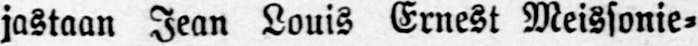jastaan Jean Louis Ernest Meissonie-
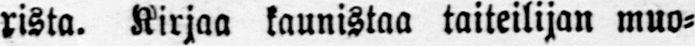rista. Kirjaa kaunistaa taiteilijan muo-
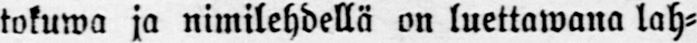tokuwa ja nimilehdellä on luettawana lah-
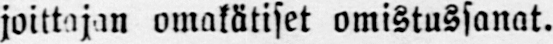joittojan omakätiset omistussanat.
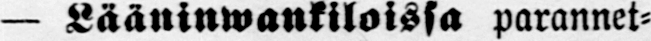— Lääninwankiloissa parannet-
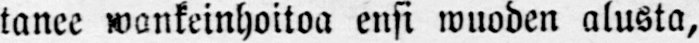tanee wankeinhoitoa ensi wuoden alusta,
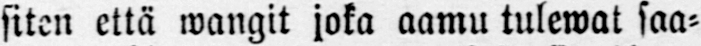siten että wangit joka aamu tulewat saa-
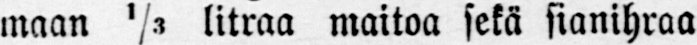maan ⅓ litraa maitoa sekä sianihraa
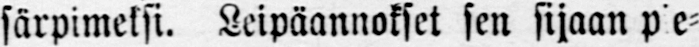särpimeksi. Leipäannokset sen sijaan pie-
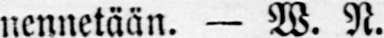nennetään. — W. N.
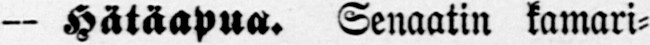— Hätäapua. Senaatin kamari-
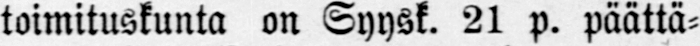toimituskunta on Syysk. 21 p. päättä-
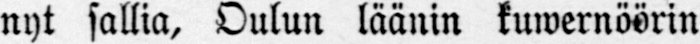nyt sallia, Oulun läänin kuwernöörin
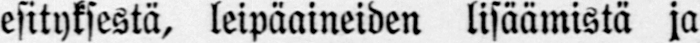esityksestä, leipäaineiden lisäämistä ja
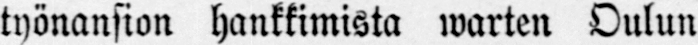työnansion hankkimista warten Oulun
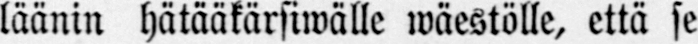läänin hätääkärsiwälle wäestölle, että se
